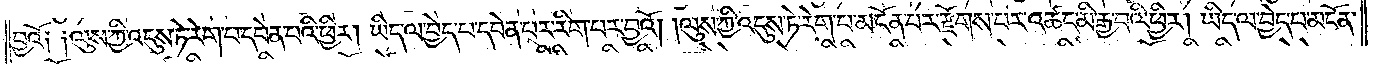བྱའོ༏ ༏ལུས་ཀྱི་འདུས་ཏེ་རེག་པ་དབེན་པའི་ཕྱིར། ཡིད་ལ་བྱེད་པ་དབེན་པར་རིག་པར་བྱའོ། །ལུས་ཀྱི་འདུས་ཏེ་རེག་པ་མངོན་པར་རྫོགས་པར་འཚང་མི་རྒྱ་བའི་ཕྱིར། ཡིད་ལ་བྱེད་པ་མངོན་
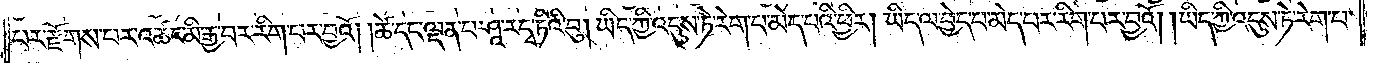པར་རྫོགས་པར་འཚང་མི་རྒྱ་བར་རིག་པར་བྱའོ། །ཚེ་དང་ལྡན་པ་ཤཱ་ར་དྭ་ཏིའི་བུ། ཡིད་ཀྱི་འདུས་ཏེ་རེག་པ་མེད་པའི་ཕྱིར། ཡིད་ལ་བྱེད་པ་མེད་པར་རིག་པར་བྱའོ། །ཡིད་ཀྱི་འདུས་ཏེ་རེག་པ་
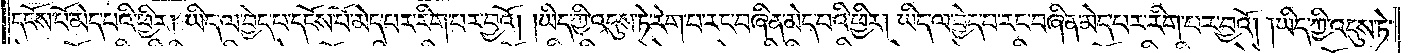དངོས་པོ་མེད་པའི་ཕྱིར། ཡིད་ལ་བྱེད་པ་དངོས་པོ་མེད་པར་རིག་པར་བྱའོ། །ཡིད་ཀྱི་འདུས་ཏེ་རེག་པ་རང་བཞིན་མེད་པའི་ཕྱིར། ཡིད་ལ་བྱེད་པ་རང་བཞིན་མེད་པར་རིག་པར་བྱའོ། །ཡིད་ཀྱི་འདུས་ཏེ་
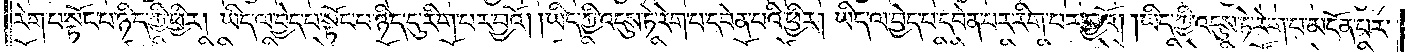རེག་པ་སྟོང་པ་ཉིད་ཀྱི་ཕྱིར། ཡིད་ལ་བྱེད་པ་སྟོང་པ་ཉིད་དུ་རིག་པར་བྱའོ། །ཡིད་ཀྱི་འདུས་ཏེ་རེག་པ་དབེན་པའི་ཕྱིར། ཡིད་ལ་བྱེད་པ་དབེན་པར་རིག་པར་བྱའོ། །ཡིད་ཀྱི་འདུས་ཏེ་རེག་པ་མངོན་པར་
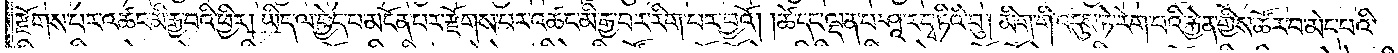རྫོགས་པར་འཚང་མི་རྒྱ་བའི་ཕྱིར། ཡིད་ལ་བྱེད་པ་མངོན་པར་རྫོགས་པར་འཚང་མི་རྒྱ་བར་རིག་པར་བྱའོ། །ཚེ་དང་ལྡན་པ་ཤཱ་ར་དྭ་ཏིའི་བུ། མིག་གི་འདུས་ཏེ་རེག་པའི་རྐྱེན་གྱིས་ཚོར་བ་མེད་པའི་
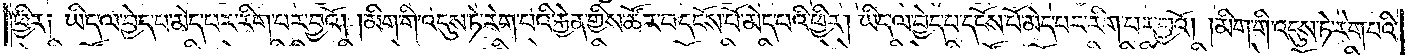ཕྱིར༏ ཡིད་ལ་བྱེད་པ་མེད་པར་རིག་པར་བྱའོ། །མིག་གི་འདུས་ཏེ་རེག་པའི་རྐྱེན་གྱིས་ཚོར་བ་དངོས་པོ་མེད་པའི་ཕྱིར། ཡིད་ལ་བྱེད་པ་དངོས་པོ་མེད་པར་རིག་པར་བྱའོ། །མིག་གི་འདུས་ཏེ་རེག་པའི་
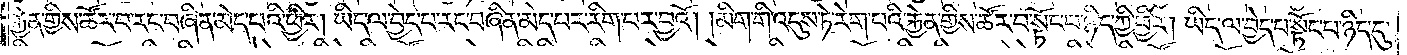རྐྱེན་གྱིས་ཚོར་བ་རང་བཞིན་མེད་པའི་ཕྱིར། ཡིད་ལ་བྱེད་པ་རང་བཞིན་མེད་པར་རིག་པར་བྱའོ། །མིག་གི་འདུས་ཏེ་རེག་པའི་རྐྱེན་གྱིས་ཚོར་བ་སྟོང་པ་ཉིད་ཀྱི་ཕྱིར། ཡིད་ལ་བྱེད་པ་སྟོང་པ་ཉིད་
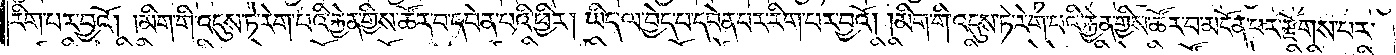རིག་པར་བྱའོ། །མིག་གི་འདུས་ཏེ་རེག་པའི་རྐྱེན་གྱིས་ཚོར་བ་དབེན་པའི་ཕྱིར། ཡིད་ལ་བྱེད་པ་དབེན་པར་རིག་པར་བྱའོ། །མིག་གི་འདུས་ཏེ་རེག་པའི་རྐྱེན་གྱིས་ཚོར་བ་མངོན་པར་རྫོགས་པར་
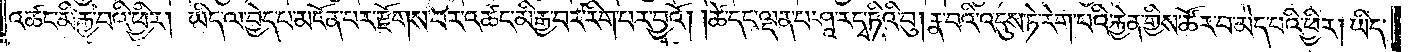འཚང་མི་རྒྱ་བའི་ཕྱིར། ཡིད་ལ་བྱེད་པ་མངོན་པར་རྫོགས་པར་འཚང་མི་རྒྱ་བར་རིག་པར་བྱའོ། །ཚེ་དང་ལྡན་པ་ཤཱ་ར་དྭ་ཏིའི་བུ། རྣ་བའི་འདུས་ཏེ་རེག་པའི་རྐྱེན་གྱིས་ཚོར་བ་མེད་པའི་ཕྱིར། ཡིད་
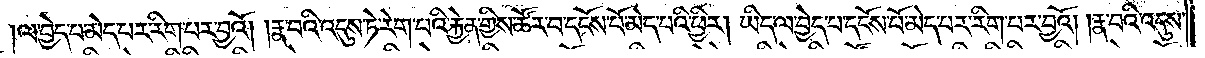ལ་བྱེད་པ་མེད་པར་རིག་པར་བྱའོ། །རྣ་བའི་འདུས་ཏེ་རེག་པའི་རྐྱེན་གྱིས་ཚོར་བ་དངོས་པོ་མེད་པའི་ཕྱིར། ཡིད་ལ་བྱེད་པ་དངོས་པོ་མེད་པར་རིག་པར་བྱའོ། །རྣ་བའི་འདུས་
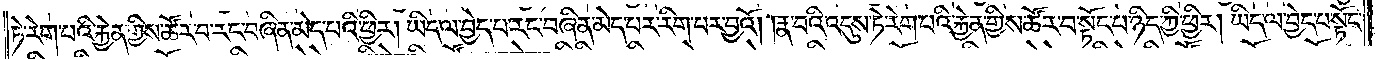ཏེ་རེག་པའི་རྐྱེན་གྱིས་ཚོར་བ་རང་བཞིན་མེད་པའི་ཕྱིར། ཡིད་ལ་བྱེད་པ་རང་བཞིན་མེད་པར་རིག་པར་བྱའོ། །རྣ་བའི་འདུས་ཏེ་རེག་པའི་རྐྱེན་གྱིས་ཚོར་བ་སྟོང་པ་ཉིད་ཀྱི་ཕྱིར། ཡིད་ལ་བྱེད་པ་སྟོང་
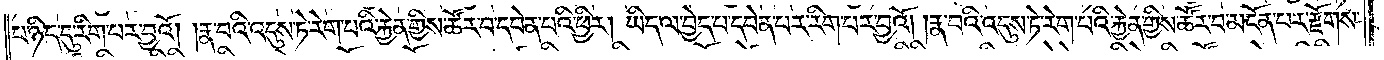པ་ཉིད་དུ་རིག་པར་བྱའོ། །རྣ་བའི་འདུས་ཏེ་རེག་པའི་རྐྱེན་གྱིས་ཚོར་བ་དབེན་པའི་ཕྱིར། ཡིད་ལ་བྱེད་པ་དབེན་པར་རིག་པར་བྱའོ། །རྣ་བའི་འདུས་ཏེ་རེག་པའི་རྐྱེན་གྱིས་ཚོར་བ་མངོན་པར་རྫོགས་
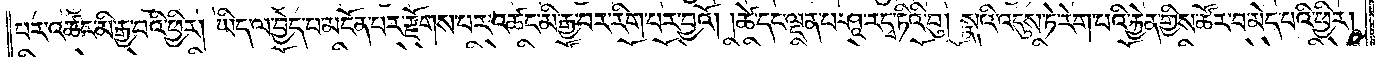པར་འཚང་མི་རྒྱ་བའི་ཕྱིར། ཡིད་ལ་བྱེད་པ་མངོན་པར་རྫོགས་པར་འཚང་མི་རྒྱ་བར་རིག་པར་བྱའོ། །ཚེ་དང་ལྡན་པ་ཤཱ་ར་དྭ་ཏིའི་བུ། སྣའི་འདུས་ཏེ་རེག་པའི་རྐྱེན་གྱིས་ཚོར་བ་མེད་པའི་ཕྱིར།
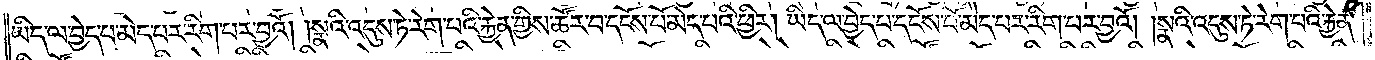ཡིད་ལ་བྱེད་པ་མེད་པར་རིག་པར་བྱའོ། །སྣའི་འདུས་ཏེ་རེག་པའི་རྐྱེན་གྱིས་ཚོར་བ་དངོས་པོ་མེད་པའི་ཕྱིར། ཡིད་ལ་བྱེད་པ་དངོས་པོ་མེད་པར་རིག་པར་བྱའོ། །སྣའི་འདུས་ཏེ་རེག་པའི་རྐྱེན་
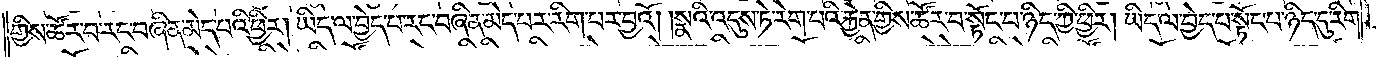གྱིས་ཚོར་བ་རང་བཞིན་མེད་པའི་ཕྱིར། ཡིད་ལ་བྱེད་པ་རང་བཞིན་མེད་པར་རིག་པར་བྱའོ། །སྣའི་འདུས་ཏེ་རེག་པའི་རྐྱེན་གྱིས་ཚོར་བ་སྟོང་པ་ཉིད་ཀྱི་ཕྱིར། ཡིད་ལ་བྱེད་པ་སྟོང་པ་ཉིད་དུ་རིག་
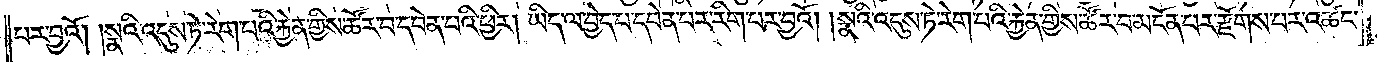པར་བྱའོ། །སྣའི་འདུས་ཏེ་རེག་པའི་རྐྱེན་གྱིས་ཚོར་བ་དབེན་པའི་ཕྱིར། ཡིད་ལ་བྱེད་པ་དབེན་པར་རིག་པར་བྱའོ། །སྣའི་འདུས་ཏེ་རེག་པའི་རྐྱེན་གྱིས་ཚོར་བ་མངོན་པར་རྫོགས་པར་འཚང་
